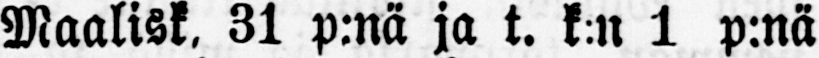Maalisk. 31 p:nä ja t. k.n 1 p:nä
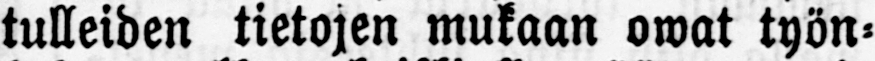tulleiden tietojen mukaan owat työn-
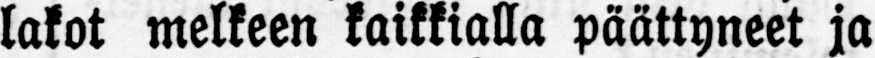lakot melkeen kaikkialla päättyneet ja
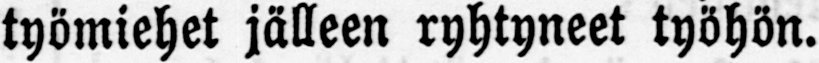työmiehet jälleen ryhtyneet työhön.
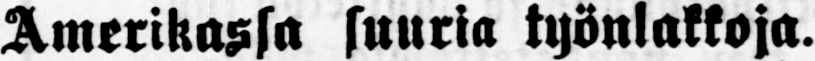Amerikassa suuria työnlakkoja.
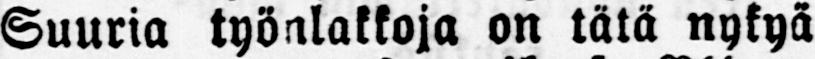Suuria työnlakkoja on tätä nykyä
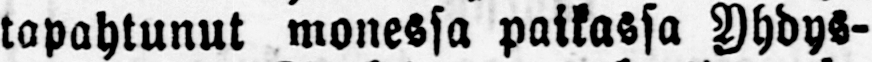tapahtunut monessa paikassa Yhdys-
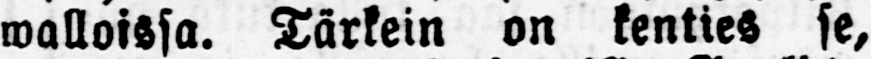walloissa. Tärkein on kenties se,
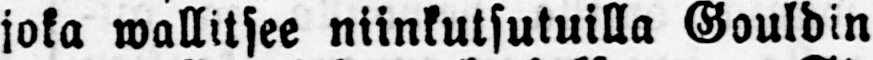joka wallitsee niinkutsutuilla Gouldin
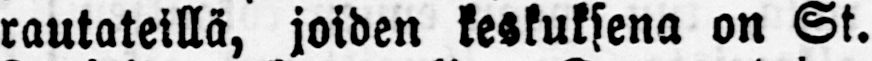rautateillä, joiden keskuksena on St.
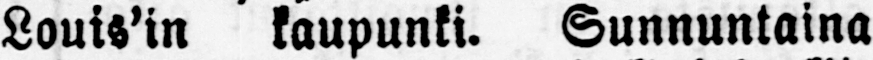Louis'in kaupunki. Sunnuntaina
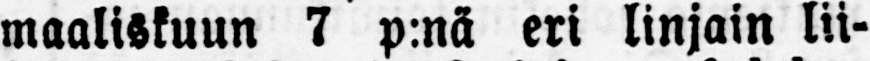maaliskuun 7 p:nä eri linjain lii-
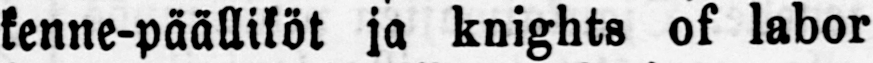kenne-päälliköt ja knights of labor
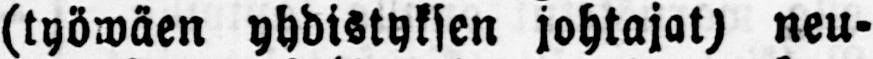(työwäen yhdistyksen johtajat) neu-
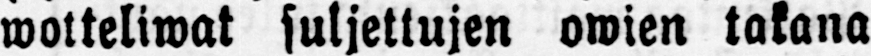wotteliwat suljettujen owien takana
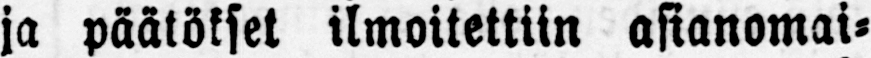ja päätökset ilmoitettiin asianomai-
